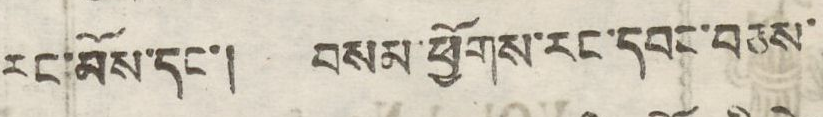རང་མོས་དང་། བསམ་ཕྱོགས་རང་དབང་བཅས་
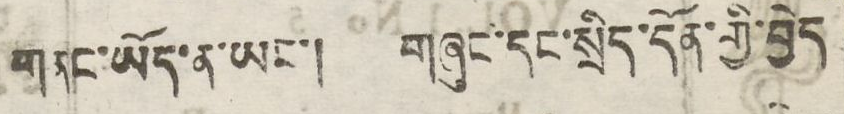གནང་ཡོད་ན་ཡང་། གཞུང་དང་སྲིད་དོན་གྱི་བྱེད
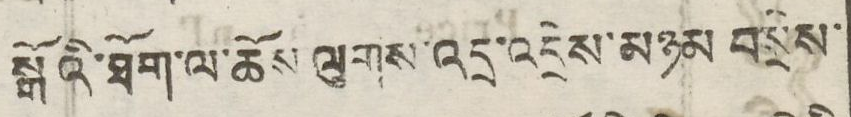སྒོའི་ཐོག་ལ་ཆོས ལུགས་འདྲ་འདྲེས་མཉམ བསྲེས་
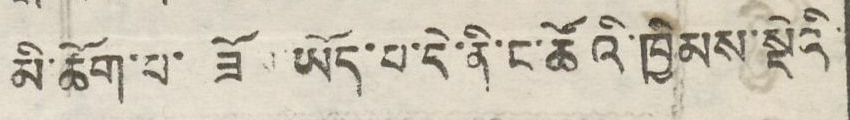མི་ཆོག་པ་ ཟོས་ཡོད་པ་དེ་ནི་ང་ཚོའི་ཁྱིམས་སྡེའི་
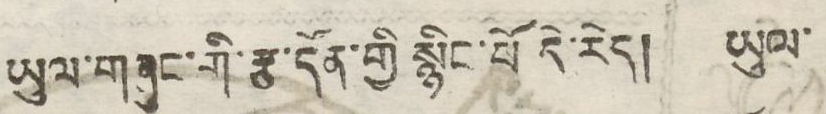ཡུལ་གཞུང་གི་རྩ་དོན་གྱི སྙིང་པོ་དེ་རེད། ཡུལ་
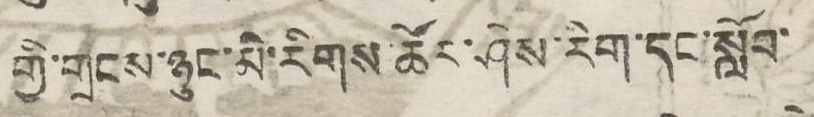གྱི་གྲངས་ཉུང་མི་རིགས་ཚོར་ཤེས་རིག་དང་སློབ་
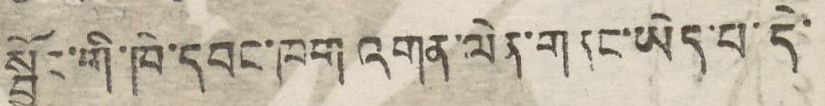སྦྱོང་གི་ཁེ་དབང་ཁག འགན་ལེན་གནང་ཡིད་པ་དེ་
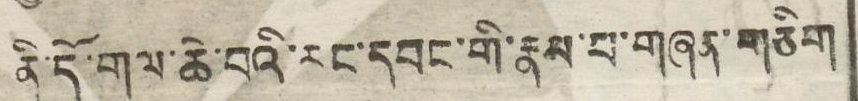ནི་དོ་གལ་ཆེ་བའི་རང་དབང་གི་རྣམ་པ་གཞན་གཅིག
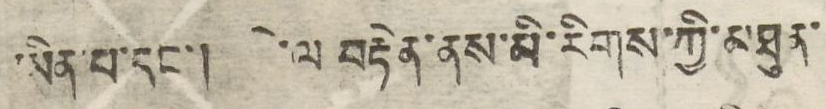ཡིན་པ་དང་། དེ་ལ བརྟེན་ནས་མི་རིགས་ཀྱི་མཐུན་
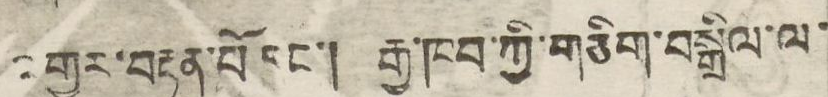འགྱུར་བརྟན་པོ་དང་། རྒྱ་ཁབ་ཀྱི་གཅིག་བསྒྲིལ་ལ་
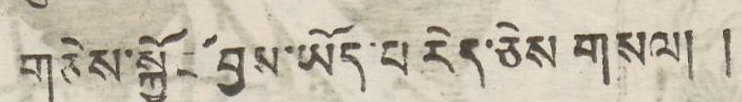གཅེས་སྐྱོང་བྱས་ཡོད་པ་རེད་ཅེས གསལ། །
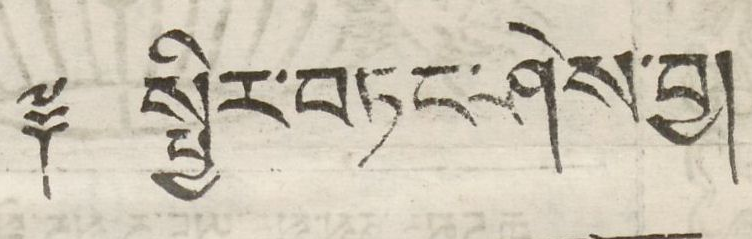༈ སྤྱིར་བཏང་ཤེས་བྱ།
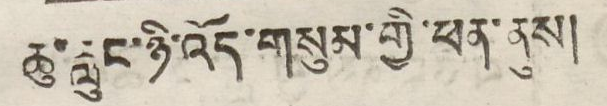ཆུ་རླུང་ཉི་འོད་གསུམ་གྱི་ཕན་ནུས།
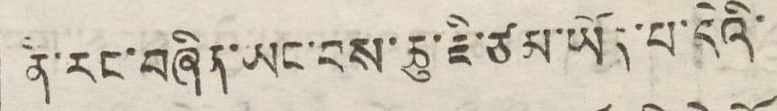ནི་རང་བཞིན་ཡང་བས་ཆུ་རྗི་ཙམ་ཡོད་པ་དེའི་
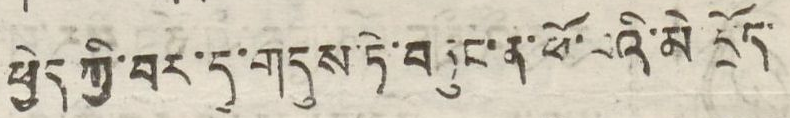ཕྱེད ཀྱི་བར་དུ་གདུས་ཏེ་བཏུང་ན་ཕོ་བའི་མེ་དྲོད་
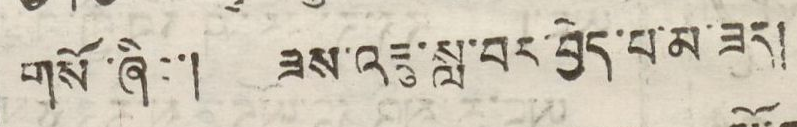གསོ་ཞིང་། ཟས་འཇུ་ཟླ་བར་བྱེད་པ་མ་ཟད།
